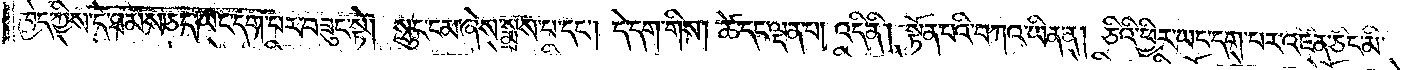ཁྱེད་ཀྱིས་དེ་ཐམས་ཅད་ཡང་དག་པར་བཟུང་སྟེ། སྲུང་ངམ་ཞེས་སྨྲས་པ་དང༌། དེ་དག་གིས། ཚེ་དང་ལྡན་པ། འདི་ནི། སྟོན་པའི་བཀའ་ཡིན་ན། ཅིའི་ཕྱིར་ཡང་དག་པར་འཛིན་ཅིང་མི་
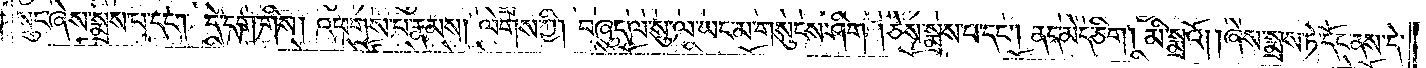སྲུང་ཞེས་སྨྲས་པ་དང༌། དེ་དག་གིས། འཕགས་པ་རྣམས། ལེགས་ཀྱི། བཞུད་ལ་སུ་ལ་ཡང་མ་གསུངས་ཤིག །ཅེས་སྨྲས་པ་དང༌། ནད་མེད་ཅིག །མི་སྨྲའོ། །ཞེས་སྨྲས་ཏེ་དོང་ནས་དེ་
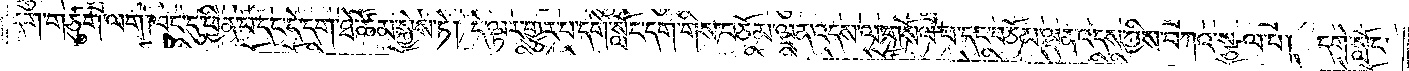དག་གཙུག་ལག་ཁང་དུ་ཕྱིན་པ་དང་དེ་དག་ཐེ་ཚོམ་སྐྱེས་ཏེ། དེ་ལྟར་གྱུར་པ་དགེ་སློང་དག་གིས་བཅོམ་ལྡན་འདས་ལ་གསོལ་པ་དང་བཅོམ་ལྡན་འདས་ཀྱིས་བཀའ་སྩལ་པ། དགེ་སློང་
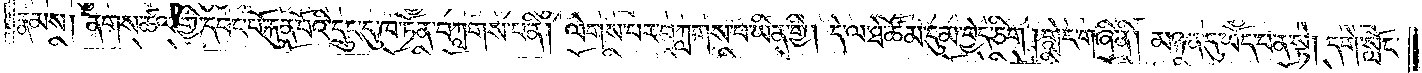རྣམས། ནགས་ཚལ་གྱི་དབང་པོ་རྐུན་པོའི་དྲུང་དུ་ཁ་ཏོན་བཀླགས་པ་ནི། ལེགས་པར་བཀླགས་པ་ཡིན་གྱི། དེ་ལ་ཐེ་ཚོམ་དུ་མ་བྱེད་ཅིག །གླེང་གཞི་ནི། མཉན་དུ་ཡོད་པ་ན་སྟེ། དགེ་སློང་
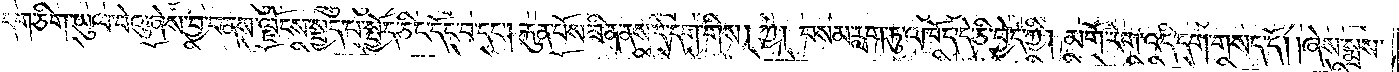དག་ཅིག་ཡུལ་བེའུ་ཞེས་བྱ་བ་ནས་ལྗོངས་སྤྱད་པ་སྤྱོད་ཅིང་དོང་བ་དང༌། རྐུན་པོས་ཟིན་ནས་དེ་དག་གིས། ཀྱེ། བསམ་རླག་ཏུ་འཁོད་དེ་ཅི་བྱེད་ཀྱི། མགོ་རེག་འདི་དག་གསད་དོ། །ཞེས་སྨྲས་
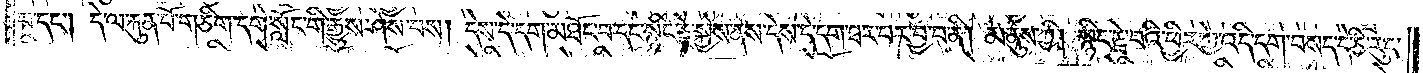པ་དང༌། དེ་ལ་རྐུན་པོ་གཅིག་དགེ་སློང་གི་རྒྱུས་ཤེས་པས། དེས་དེ་དག་མཐོང་བ་དང་སྙིང་རྗེ་སྐྱེས་ནས་དེས་དེ་དག་ཐར་པར་བྱ་བ་ནི། མ་ནུས་ཀྱི། སྙིང་རྗེ་བའི་ཕྱིར་ཀྱེ་འདི་དག་བསད་དེ་ཅི་རུང་
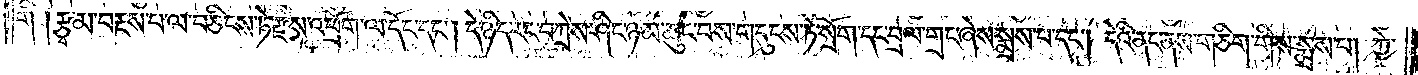གི །རྩྭ་མ་བརྔས་པ་ལ་བཅིངས་ཏེ་རྫས་འཕྲོག་ལ་དོང་དང༌། དེ་ཉིད་རང་བཀྲེས་ཤིང་ཉམ་ཆུང་བས་གདུངས་ཏེ་སྲོག་དང་བྲལ་གྲང་ཞེས་སྨྲས་པ་དང༌། དེའི་ནང་ནས་གཅིག་གིས་སྨྲས་པ། ཀྱེ་
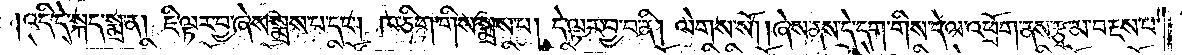འདི་དེ་སྐད་སྨྲ་ན། ཇི་ལྟར་བྱ་ཞེས་སྨྲས་པ་དང༌། ཁ་ཅིག་གིས་སྨྲས་པ། དེ་ལྟར་བྱ་བ་ནི། ལེགས་སོ། །ཞེས་ནས་དེ་དག་གིས་དེ་ལ་འཕྲོག་ནས་རྩྭ་མ་བརྔས་པ་
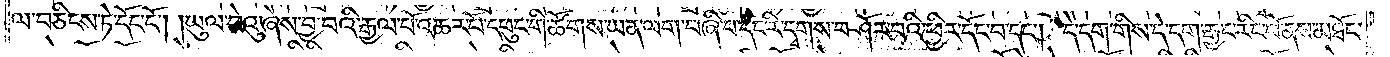ལ་བཅིངས་ཏེ་དོང་ངོ༌། །ཡུལ་བེའུ་ཞེས་བྱ་བའི་རྒྱལ་པོ་འཆར་པོ་དཔུང་གི་ཚོགས་ཡན་ལག་བཞི་པ་དང་རི་དྭགས་བཤོར་བའི་ཕྱིར་དོང་བ་དང༌། དེ་དག་གིས་དེ་དག་རྒྱང་རིང་པོ་ནས་མཐོང་
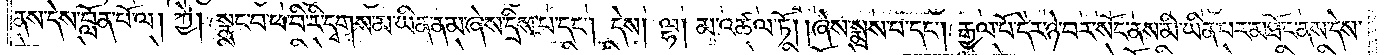ནས་དེས་བློན་པོ་ལ། ཀྱེ། སྣང་བ་ཕ་བི་རི་དྭགས་མ་ཡིན་ནམ་ཞེས་དྲིས་པ་དང༌། དེས། ལྷ། མ་འཚལ་ཏོ། །ཞེས་སྨྲས་པ་དང༌། རྒྱལ་པོ་དེར་ཉེ་བར་སོང་ནས་མི་ཡིན་པར་མཐོང་ནས་དེས་
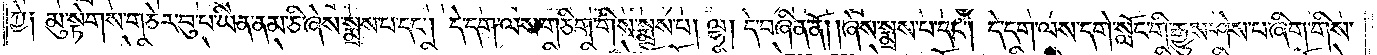ཀྱེ༑ མུ་སྟེགས་གཅེར་བུ་པ་ཡིན་ནམ་ཅི་ཞེས་སྨྲས་པ་དང༌། དེ་དག་ལས་གཅིག་གིས་སྨྲས་པ། ལྷ། དེ་བཞིན་ནོ། །ཞེས་སྨྲས་པ་དང༌། དེ་དག་ལས་དགེ་སློང་གི་རྒྱུས་ཤེས་པ་ཞིག་གིས་
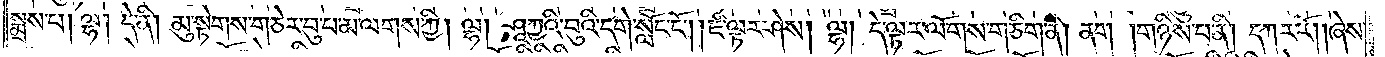སྨྲས་པ། ལྷ། དེ་ནི། མུ་སྟེགས་གཅེར་བུ་པ་མ་ལགས་ཀྱི། ལྷ། ཤཱཀྱའི་བུའི་དགེ་སློང་ངོ༌། །ཇི་ལྟར་ཤེས། ལྷ། དེ་ལྟར་ལོགས་གཅིག་ནི། ནག །གཉིས་པ་ནི། དཀར་རོ། །ཞེས་
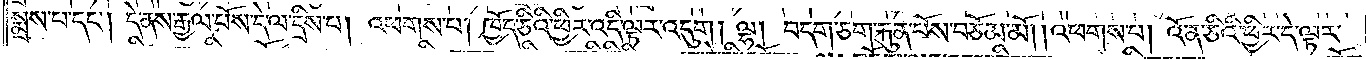སྨྲས་པ་དང༌། དེ་ནས་རྒྱལ་པོས་དེ་ལ་དྲིས་པ། འཕགས་པ། ཁྱོད་ཅིའི་ཕྱིར་འདི་ལྟར་འདུག། ལྷ། བདག་ཅག་རྐུན་པོས་བཅོམ་མོ། །འཕགས་པ། འོ་ན་ཅིའི་ཕྱིར་དེ་ལྟར་
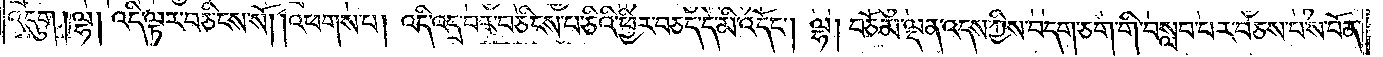འདུག །ལྷ། འདི་ལྟར་བཅིངས་སོ། །འཕགས་པ། འདི་འདྲ་བར་བཅིངས་པ་ཅིའི་ཕྱིར་བཅད་དེ་མི་འདོང༌། ལྷ། བཅོམ་ལྡན་འདས་ཀྱིས་བདག་ཅག་གི་བསླབ་པར་བཅས་པ་ས་བོན་
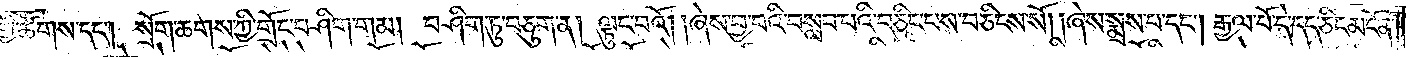གྱི་ཚོགས་དང༌། སྲོག་ཆགས་ཀྱི་གྲོང་བཤིག་གམ། བཤིག་ཏུ་བཅུག་ན། ལྟུང་བའོ། །ཞེས་བྱ་བའི་བསླབ་པའི་བཅིང་པས་བཅིངས་སོ། །ཞེས་སྨྲས་པ་དང༌། རྒྱལ་པོ་དེ་དད་ཅིང་མངོན་
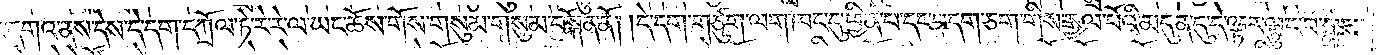པར་དགའ་ནས་དེས་དེ་དག་དཀྲོལ་ཏེ་རེ་རེ་ལ་ཡང་ཆོས་གོས་གསུམ་གསུམ་བསྐོན་ནོ། །དེ་དག་གཙུག་ལག་ཁང་དུ་ཕྱིན་པ་དང་བདག་གིས་རྒྱལ་པོའི་མདུན་དུ་དེ་ལྟར་ལྟུང་བ་སྨྲས་
